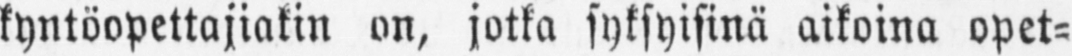kyntöopettajiakin on, jotka syksyisinä aikoina opet-
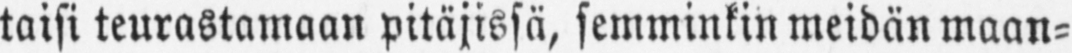taisi teurastamaan pitäjissä, semminkin meidän maan-
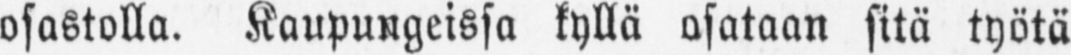osastolla. Kaupungeissa kyllä osataan sitä työtä
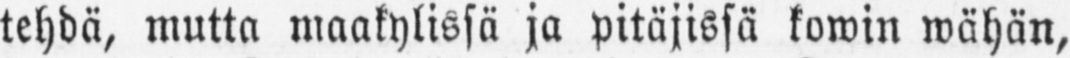tehdä, mutta maakylissä ja pitäjissä kowin wähän,
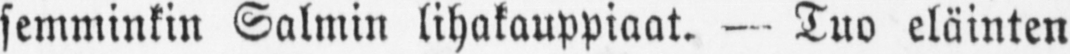semminkin Salmin lihakauppiaat. — Tuo eläinten
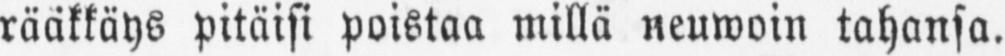rääkkäys pitäisi poistaa millä neuwoin tahansa.
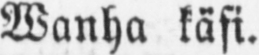Wanha käsi.
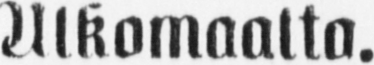Ulkomaalta.
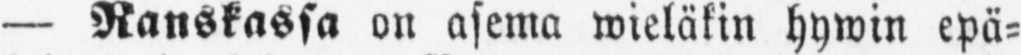— Ranskassa on asema wieläkin hywin epä-
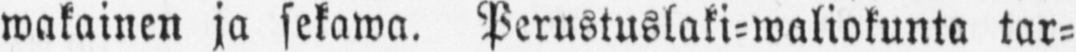wakainen ja sekawa. Perustuslaki-waliokunta tar-
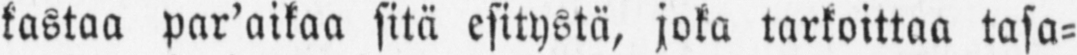kastaa par'aikaa sitä esitystä, joka tarkoittaa tasa-
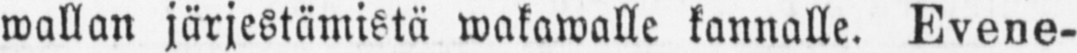wallan järjestämistä wakawalle kannalle. Evene-
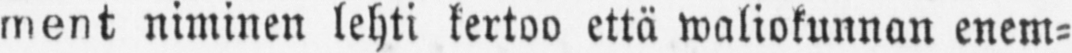ment niminen lehti kertoo että waliokunnan enem-
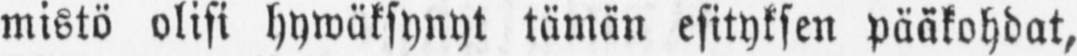mistö olisi hywäksynyt tämän esityksen pääkohdat,
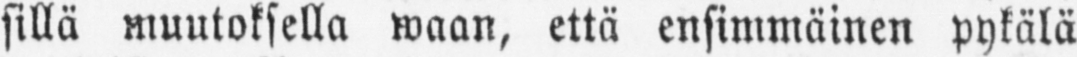sillä muutoksella waan, että ensimmäinen pykälä
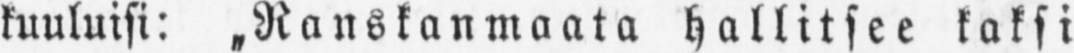kuuluisi: „Ranskanmaata hallitsee kaksi
